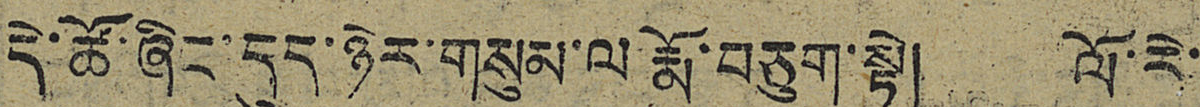དེ་ཚོ་ཞིང་དུད་ཉེར་གསུམ་ལ་རྨོ་བཅུག་སྟེ། ལོ་རེ་
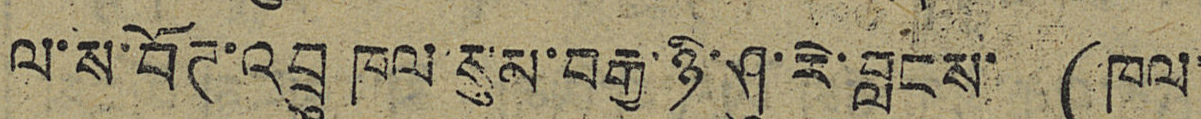ལ་ས་བོཊ་འབྲུ ཁལ་སུམ་བརྒྱ་ཉི་ཤུ་རེ་བླངས་ (ཁལ་
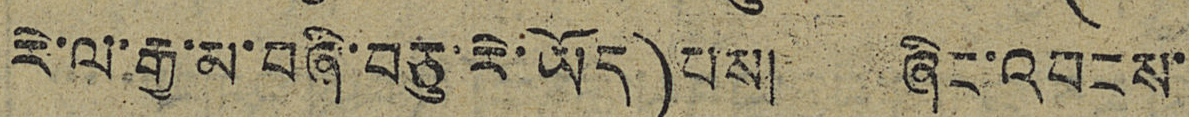རེ་ལ་རྒྱ་མ་བཞི་བཅུ་རེ་ཡོད)པས། ཞིང་འབངས་
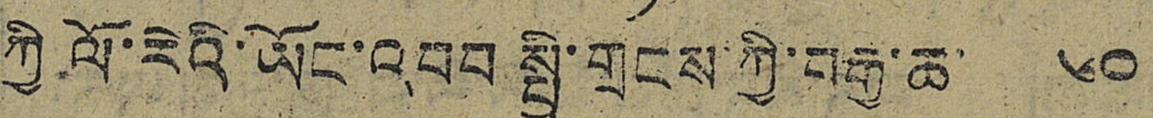ཀྱི ལོ་རེའི་ཡོང་འབབ སྤྱི་གྲངས་ཀྱི་བརྒྱ་ཆ་ ༦༠
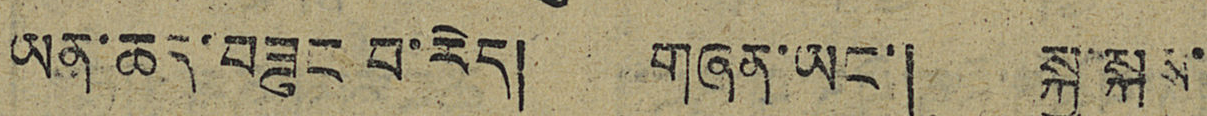ཡན་ཆད་བཟུང བ་རེད། གཞན་ཡང་། སྐྱ་སྐས་
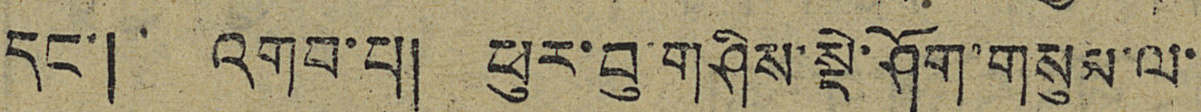དང་། འགབ་པ། ཕུར་བུ་གཤིས་སྡེ་ཤོག་གསུམ་ལ་
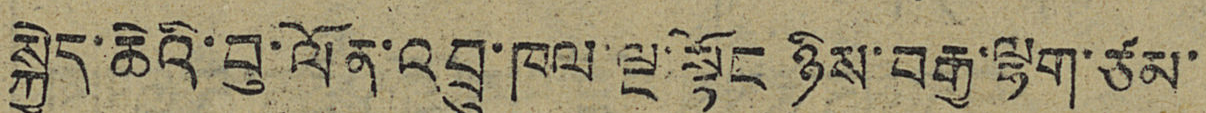སྐྱེད་ཆེའི་བུ་ལོན་འབྲུ་ཁལ་ལྔ་སྟོང ཉིས་བརྒྱ་ལྷག་ཙམ་
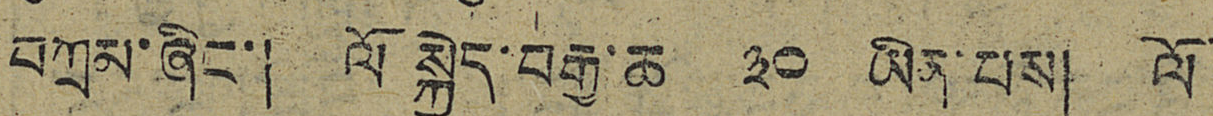བཀྲམ་ཞིང་། ལོ སྐྱེད་བརྒྱ་ཆ ༣༠ ཡིན་པས། ལོ
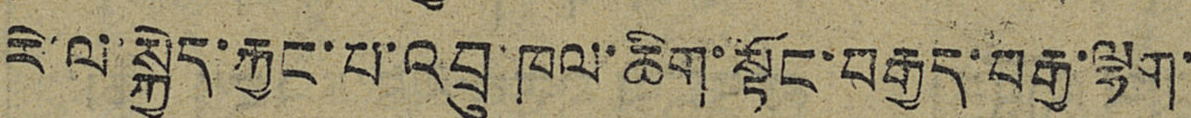རེ་ལ་སྐྱེད་རྐྱང་པ་འབྲུ་ཁལ་ཆིག་སྟོང་བརྒྱད་བརྒྱ་ལྷག་
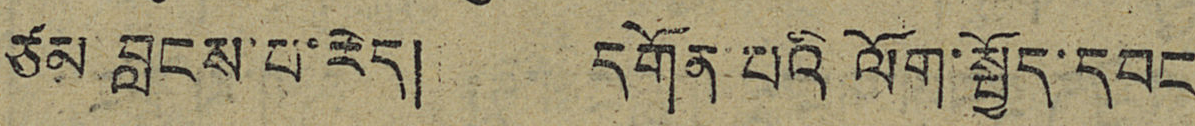ཙམ བླངས་པ་རེད། དགོན་པའི ལོག་སྤྱོད་དབང
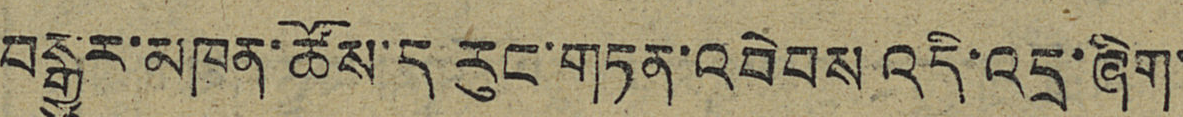བསྒྱུར་མཁན་ཚོས་ད རུང་གཏན་འབེབས འདི་འདྲ་ཞིག་
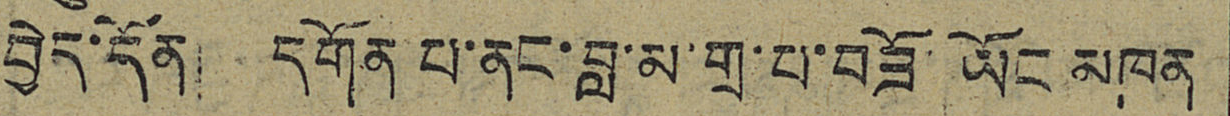བྱེད་དོན། དགོན པ་ནང་བླ་མ་གྲ་པ་བཟོ་ཡོང མཁན
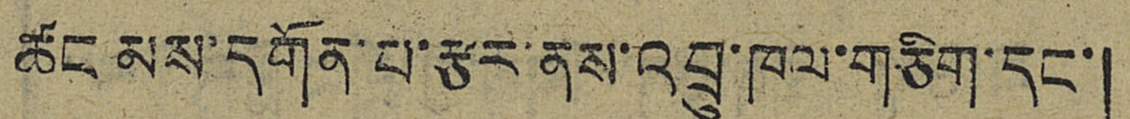ཚང མས་དགོན་པ་རྩར་ནས་འབྲུ་ཁལ་གཅིག་དང་།
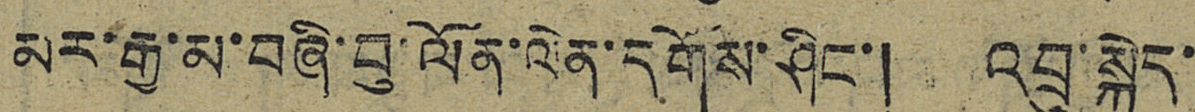མར་རྒྱ་མ་བཞི་བུ་ལོན་ལེན་དགོས་ཤིང་། འབྲུ་སྐྱེད་
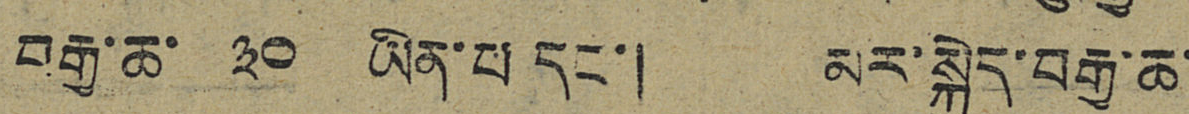བརྒྱ་ཆ་ ༣༠ ཡིན་པ་དང་། མར་སྐྱེད་བརྒྱ་ཆ་
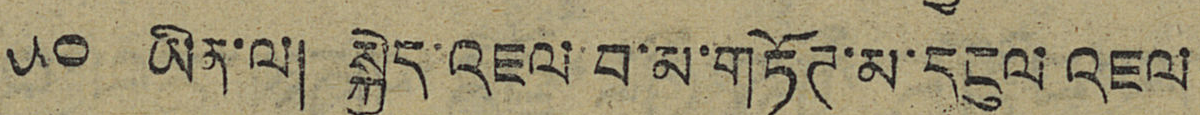༥༠ ཡིན་ལ། སྐྱེད་འཇལ་བ་མ་གཏོཊ་མ་དངུལ་འཇལ
